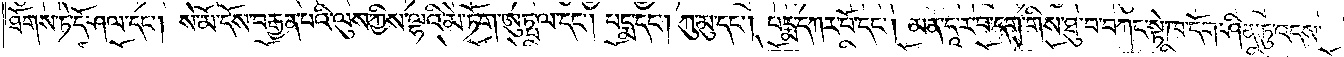ཐོགས་ཏེ་དོ་ཤལ་དང༌། སེ་མོ་དོས་བརྒྱན་པའི་ལུས་ཀྱིས་ལྷའི་མེ་ཏོག་ཨུཏྤ་ལ་དང༌། པདྨ་དང༌། ཀུ་མུ་དང༌། པདྨ་དཀར་པོ་དང༌། མན་དཱ་ར་བ་དག་གིས་ཐུ་བ་བཀང་སྟེ་ཁ་དོག་ཤིན་ཏུ་འདས་
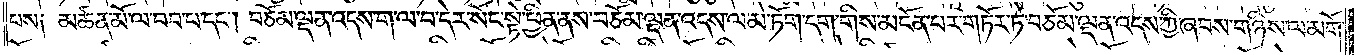པས༑ མཚན་མོ་ལ་བབ་པ་དང༌། བཅོམ་ལྡན་འདས་ག་ལ་བ་དེར་སོང་སྟེ་ཕྱིན་ནས་བཅོམ་ལྡན་འདས་ལ་མེ་ཏོག་དག་གིས་མངོན་པར་གཏོར་ཏེ་བཅོམ་ལྡན་འདས་ཀྱི་ཞབས་གཉིས་ལ་མགོ་
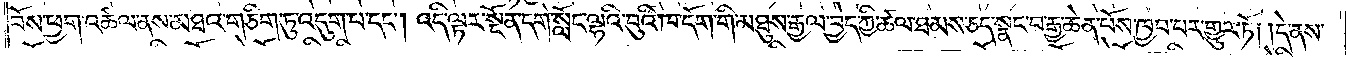བོས་ཕྱག་འཚལ་ནས་མཐའ་གཅིག་ཏུ་འདུག་པ་དང༌། འདི་ལྟར་སྔོན་དགེ་སློང་ལྷའི་བུའི་ཁ་དོག་གི་མཐུས་རྒྱལ་བྱེད་ཀྱི་ཚལ་ཐམས་ཅད་སྣང་བ་རྒྱ་ཆེན་པོས་ཁྱབ་པར་གྱུར་ཏོ། །དེ་ནས་
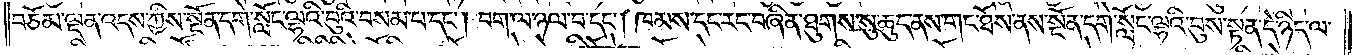བཅོམ་ལྡན་འདས་ཀྱིས་སྔོན་དགེ་སློང་ལྷའི་བུའི་བསམ་པ་དང༌། བག་ལ་ཉལ་བ་དང༌། ཁམས་དང་རང་བཞིན་ཐུགས་སུ་ཆུད་ནས་གང་ཐོས་ནས་སྔོན་དགེ་སློང་ལྷའི་བུས་སྟན་དེ་ཉིད་ལ་
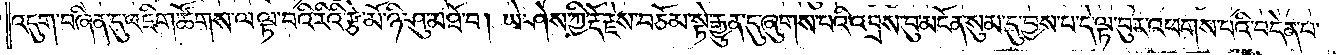འདུག་བཞིན་དུ་འཇིག་ཚོགས་ལ་ལྟ་བའི་རིའི་རྩེ་མོ་ཉི་ཤུ་མཐོ་བ། ཡེ་ཤེས་ཀྱི་རྡོ་རྗེས་བཅོམ་སྟེ་རྒྱུན་དུ་ཞུགས་པའི་འབྲས་བུ་མངོན་སུམ་དུ་བྱས་པ་དེ་ལྟ་བུར་འཕགས་པའི་བདེན་པ་
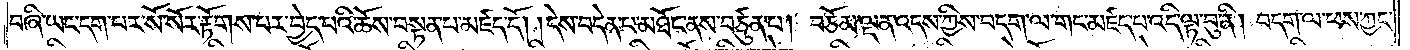བཞི་ཡང་དག་པར་སོ་སོར་རྟོགས་པར་བྱེད་པའི་ཆོས་བསྟན་པ་མཛད་དོ། །དེས་བདེན་པ་མཐོང་ནས་བཙུན་པ། བཅོམ་ལྡན་འདས་ཀྱིས་བདག་ལ་གང་མཛད་པ་འདི་ལྟ་བུ་ནི། བདག་ལ་ཕས་ཀྱང་
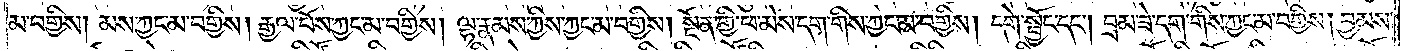མ་བགྱིས། མས་ཀྱང་མ་བགྱིས། རྒྱལ་པོས་ཀྱང་མ་བགྱིས། ལྷ་རྣམས་ཀྱིས་ཀྱང་མ་བགྱིས། སྔོན་གྱི་ཕ་མེས་དག་གིས་ཀྱང་མ་བགྱིས། དགེ་སྦྱོང་དང༌། བྲམ་ཟེ་དག་གིས་ཀྱང་མ་བགྱིས། བྱམས་
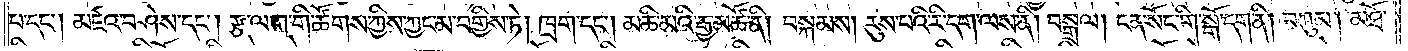པ་དང༌། མཛའ་བཤེས་དང༌། རྩ་ལག་གི་ཚོགས་ཀྱིས་ཀྱང་མ་བགྱིས་ཏེ། ཁྲག་དང༌། མཆི་མའི་རྒྱ་མཚོ་ནི། བསྐམས། རུས་པའི་རི་དག་ལས་ནི། བསྒྲལ། ངན་སོང་གི་སྒོ་དག་ནི། བཀུམ། མཐོ་
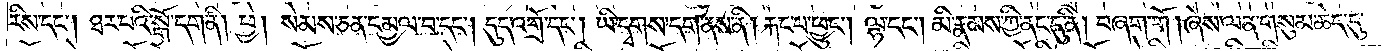རིས་དང༌། ཐར་པའི་སྒོ་དག་ནི། ཕྱེ། སེམས་ཅན་དམྱལ་བ་དང༌། དུད་འགྲོ་དང༌། ཡི་དྭགས་དག་ནས་ནི། རྐང་པ་ཕྱུང༌། ལྷ་དང༌། མི་རྣམས་ཀྱི་ནང་དུ་ནི། བཞག་གོ། ཞེས་ལན་གསུམ་ཆེད་དུ་
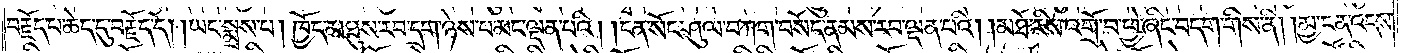བརྗོད་པ་ཆེད་དུ་བརྗོད་དོ། །ཡང་སྨྲས་པ། ཁྱོད་མཐུས་རབ་དྲག་ཉེས་པ་མང་ལྡན་པའི། །ངན་སོང་ཤུལ་བཀག་བསོད་ནམས་རབ་ལྡན་པའི། །མཐོ་རིས་འགྲོ་བ་ཕྱེ་ཞིང་བདག་གིས་ནི། །མྱ་ངན་འདས་
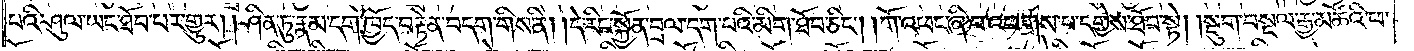པའི་ཤུལ་ཡང་ཐོབ་པར་གྱུར། །ཤིན་ཏུ་རྣམ་དག་ཁྱོད་བརྟེན་བདག་གིས་ནི། །དེ་རིང་སྐྱོན་བྲལ་དག་པའི་མིག་ཐོབ་ཅིང༌། །གོ་འཕང་ཞི་བ་འཕགས་པ་དགྱེས་ཐོབ་སྟེ། སྡུག་བསྔལ་རྒྱ་མཚོའི་ཕ་
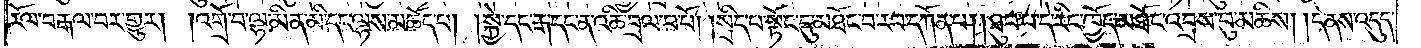རོལ་བརྒལ་བར་གྱུར། །འགྲོ་བ་ལྷ་མིན་མི་དང་ལྷས་མཆོད་པ། །སྐྱེ་དང་རྒ་དང་ན་འཆི་བྲལ་བ་པོ། །སྲིད་པ་སྟོང་དུ་མཐོང་བ་རབ་དཀོན་པ། །ཐུབ་པ་ད་རིང་ཁྱོད་མཐོང་འབྲས་བུ་མཆིས། །དེ་ནས་འདུད་
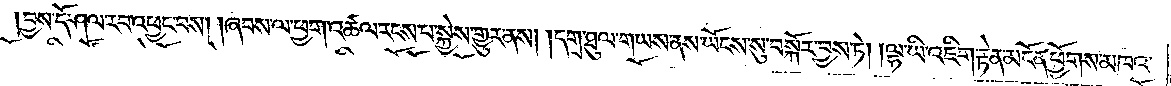བྱས་དོ་ཤལ་རབ་འཕྱང་བས། །ཞབས་ལ་ཕྱག་འཚལ་རངས་པ་སྐྱེས་གྱུར་ནས། དགྲ་ཐུལ་གཡས་ནས་ཡོངས་སུ་བསྐོར་བྱས་ཏེ། །ལྷ་ཡི་འཇིག་རྟེན་མངོན་ཕྱོགས་མཁའ་
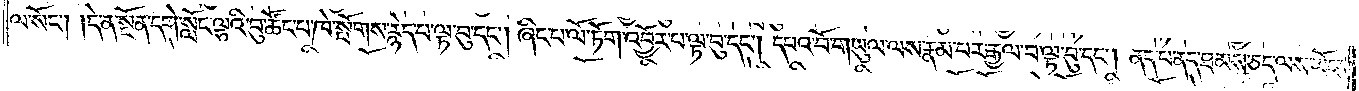ལ་སོང༌། །དེ་ན་སྔོན་དགེ་སློང་ལྷའི་བུ་ཚོང་པ་ཁེ་སྤོགས་རྙེད་པ་ལྟ་བུ་དང༌། ཞིང་པ་ལོ་ཏོག་འབྱོར་པ་ལྟ་བུ་དང༌། དཔའ་བོ་གཡུལ་ལས་རྣམ་པར་རྒྱལ་བ་ལྟ་བུ་དང༌། ནད་པ་ནད་ཐམས་ཅད་ལས་ཡོངས་
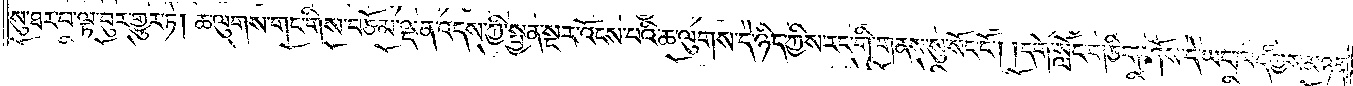སུ་ཐར་བ་ལྟ་བུར་གྱུར་ཏེ། ཆ་ལུགས་གང་གིས་བཅོམ་ལྡན་འདས་ཀྱི་སྤྱན་སྔར་འོངས་པའི་ཆ་ལུགས་དེ་ཉིད་ཀྱིས་རང་གི་གནས་སུ་སོང་ངོ༌། །དགེ་སློང་གཅིག་ཤོས་དེ་ཡང་ཁད་ཀྱིས་མཉན་
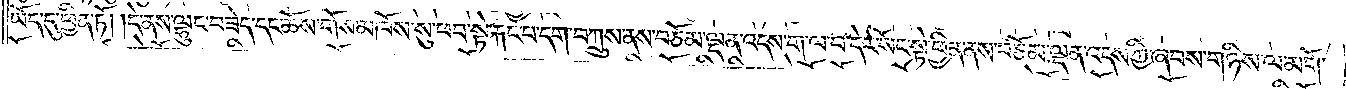ཡོད་དུ་ཕྱིན་ཏོ། །དེ་ནས་ལྷུང་བཟེད་དང་ཆོས་གོས་མཁོས་སུ་ཕབ་སྟེ་རྐང་པ་དག་བཀྲུས་ནས་བཅོམ་ལྡན་འདས་ག་ལ་བ་དེར་སོང་སྟེ་ཕྱིན་ནས་བཅོམ་ལྡན་འདས་ཀྱི་ཞབས་གཉིས་ལ་མགོ་
